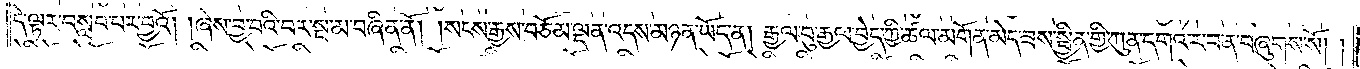དེ་ལྟར་བསླབ་པར་བྱའོ། །ཞེས་བྱ་བའི་བར་སྔ་མ་བཞིན་ནོ། །སངས་རྒྱས་བཅོམ་ལྡན་འདས་མཉན་ཡོད་ན། རྒྱལ་བུ་རྒྱལ་བྱེད་ཀྱི་ཚལ་མགོན་མེད་ཟས་སྦྱིན་གྱི་ཀུན་དགའ་ར་བ་ན་བཞུགས་སོ། །
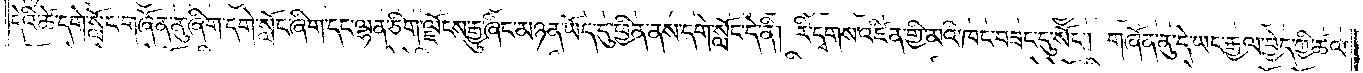དེའི་ཚེ་དགེ་སློང་གཞོན་ནུ་ཞིག་དགེ་སློང་ཞིག་དང་ལྷན་ཅིག་ལྗོངས་རྒྱུ་ཞིང་མཉན་ཡོད་དུ་ཕྱིན་ནས་དགེ་སློང་དེ་ནི། རི་དྭགས་འཛིན་གྱི་མའི་ཁང་བཟང་དུ་སོང༌། གཞོན་ནུ་དེ་ཡང་རྒྱལ་བྱེད་ཀྱི་ཚལ་
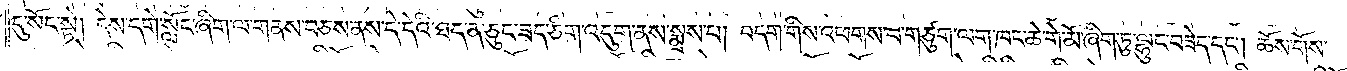དུ་སོང་སྟེ། དེས་དགེ་སློང་ཞིག་ལ་གནས་བཅས་ནས་དེ་དེའི་ཐད་ན་ཅུང་ཟད་ཅིག་འདུག་ནས་སྨྲས་པ། བདག་གིས་འཕགས་པ་གཙུག་ལག་ཁང་ཆེ་གེ་མོ་ཞིག་ཏུ་ལྷུང་བཟེད་དང༌། ཆོས་གོས་
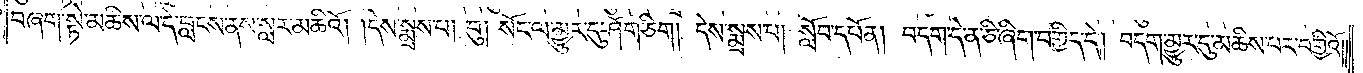བཞག་སྟེ་མཆིས་ལ་དེ་བླངས་ནས་སླར་མཆིའོ། །དེས་སྨྲས་པ། བུ། སོང་ལ་མྱུར་དུ་ཤོག་ཅིག །དེས་སྨྲས་པ། སློབ་དཔོན། བདག་དེ་ན་ཅི་ཞིག་བགྱིད་དེ། བདག་མྱུར་དུ་མཆིས་པར་བགྱིའོ། །
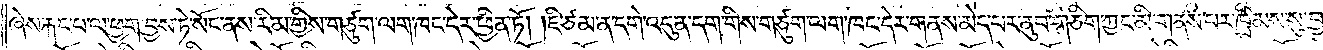ཞེས་རྐང་པ་ལ་ཕྱག་བྱས་ཏེ་སོང་ནས་རིམ་གྱིས་གཙུག་ལག་ཁང་དེར་ཕྱིན་ཏོ། །ཇི་ཙམ་ན་དགེ་འདུན་དག་གིས་གཙུག་ལག་ཁང་དེར་གནས་མེད་པར་ནུབ་གཅིག་ཀྱང་མི་གནས་པར་ཁྲིམས་སུ་བྱ་བ་
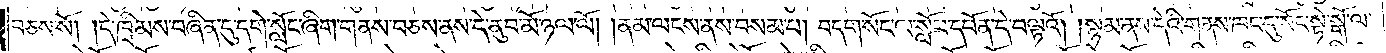བཅས་སོ། །དེ་ཁྲིམས་བཞིན་དུ་དགེ་སློང་ཞིག་གནས་བཅས་ནས་དེ་ནུབ་མོ་ཉལ་ལོ། །ནམ་ལངས་ནས་བསམ་པ། བདག་སོང་ལ་སློབ་དཔོན་དེ་བལྟའོ། །སྙམ་ནས་དེའི་གནས་ཁང་དུ་སོང་སྟེ་སྒོ་ལ་
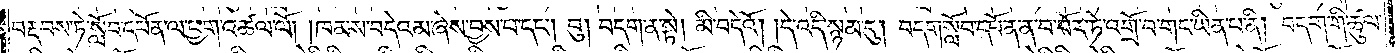བརྡབས་ཏེ་སློབ་དཔོན་ལ་ཕྱག་འཚལ་ལོ། །ཁམས་བདེའམ་ཞེས་བྱས་པ་དང༌། བུ། བདག་ན་སྟེ། མི་བདེའོ། །དེ་འདི་སྙམ་དུ། བདག་སློབ་དཔོན་ན་བ་བོར་ཏེ་འགྲོ་བ་གང་ཡིན་པ་ནི། བདག་གི་ཚུལ་
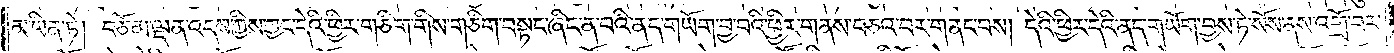མ་ཡིན་ཏེ། བཅོམ་ལྡན་འདས་ཀྱིས་ཀྱང་དེའི་ཕྱིར་གཅིག་གིས་གཅིག་བསྟང་ཞིང་ན་བའི་ནད་གཡོག་བྱ་བའི་ཕྱིར་གནས་བཅའ་བར་གནང་བས། དེའི་ཕྱིར་དེའི་ནད་གཡོག་བྱས་ཏེ་སོས་ནས་འགྲོ་བར་
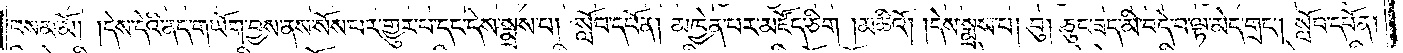བསམ་མོ། །དེས་དེའི་ནད་གཡོག་བྱས་ནས་སོས་པར་གྱུར་པ་དང་དེས་སྨྲས་པ། སློབ་དཔོན། མཁྱེན་པར་མཛོད་ཅིག །མཆིའོ། །དེས་སྨྲས་པ། བུ། ཅུང་ཟད་མི་བདེ་བ་ལྟ་མེད་གྲང༌། སློབ་དཔོན།
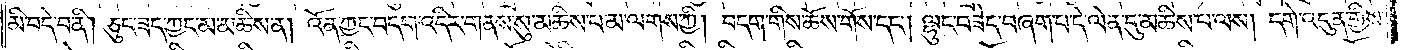མི་བདེ་བ་ནི། ཅུང་ཟད་ཀྱང་མ་མཆིས་ན། འོན་ཀྱང་བདག་འདིར་གནས་སུ་མཆིས་པ་མ་ལགས་ཀྱི། བདག་གིས་ཆོས་གོས་དང༌། ལྷུང་བཟེད་བཞག་པ་དེ་ལེན་དུ་མཆིས་པ་ལས། དགེ་འདུན་གྱིས་
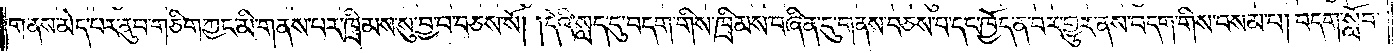གནས་མེད་པར་ནུབ་གཅིག་ཀྱང་མི་གནས་པར་ཁྲིམས་སུ་བྱ་བ་བཅས་སོ། །དེའི་སླད་དུ་བདག་གིས་ཁྲིམས་བཞིན་དུ་གནས་བཅས་པ་དང་ཁྱོད་ན་བར་གྱུར་ནས་བདག་གིས་བསམ་པ། བདག་སློབ་
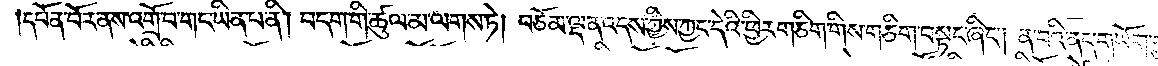དཔོན་བོར་ནས་འགྲོ་བ་གང་ཡིན་པ་ནི། བདག་གི་ཚུལ་མ་ལགས་ཏེ། བཅོམ་ལྡན་འདས་ཀྱིས་ཀྱང་དེའི་ཕྱིར་གཅིག་གིས་གཅིག་བསྟང་ཞིང༌། ན་བའི་ནད་གཡོག་བྱ་
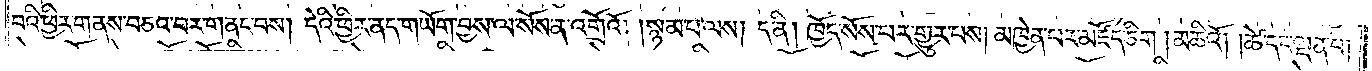བའི་ཕྱིར་གནས་བཅའ་བར་གནང་བས། དེའི་ཕྱིར་ནད་གཡོག་བྱས་ལ་སོས་ན་འགྲོའོ། །སྙམ་པ་ལས། ད་ནི། ཁྱོད་སོས་པར་གྱུར་པས། མཁྱེན་པར་མཛོད་ཅིག །མཆིའོ། །ཚེ་དང་ལྡན་པ།
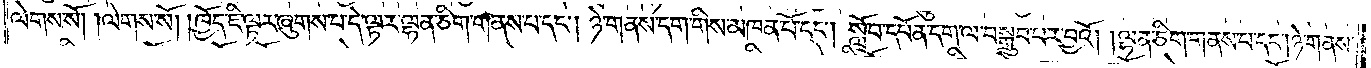ལེགས་སོ། །ལེགས་སོ། །ཁྱོད་ཇི་ལྟར་ཞུགས་པ་དེ་ལྟར་ལྷན་ཅིག་གནས་པ་དང༌། ཉེ་གནས་དག་གིས་མཁན་པོ་དང༌། སློབ་དཔོན་དག་ལ་བསྒྲུབ་པར་བྱའོ། །ལྷན་ཅིག་གནས་པ་དང༌། ཉེ་གནས་
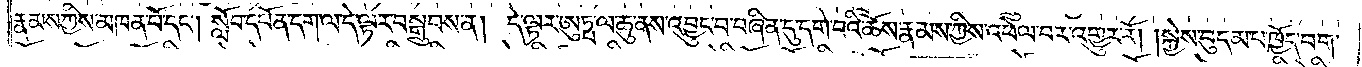རྣམས་ཀྱིས་མཁན་པོ་དང༌། སློབ་དཔོན་དག་ལ་དེ་ལྟར་བསྒྲུབས་ན། དེ་ལྟར་ཨུཏྤ་ལ་ཆུ་ནས་འབྱུང་བ་བཞིན་དུ་དགེ་བའི་ཆོས་རྣམས་ཀྱིས་འཕེལ་བར་འགྱུར་རོ། །སྐྱེས་བུ་དམ་པ་ཁྱོད་བག་
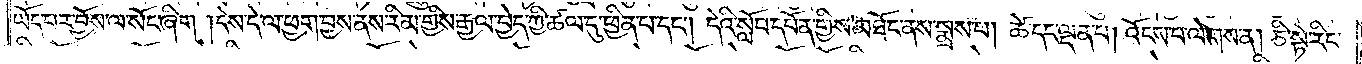ཡོད་པར་བྱོས་ལ་སོང་ཞིག །དེས་དེ་ལ་ཕྱག་བྱས་ནས་རིམ་གྱིས་རྒྱལ་བྱེད་ཀྱི་ཚལ་དུ་ཕྱིན་པ་དང༌། དེའི་སློབ་དཔོན་གྱིས་མཐོང་ནས་སྨྲས་པ། ཚེ་དང་ལྡན་པ། འོངས་པ་ལེགས་ན། ཅི་སྟེ་རིང་
